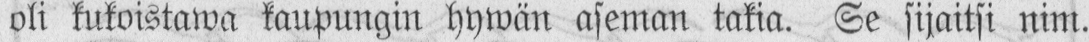oli kukoistawa kaupungin hywän aseman takia. Se sijaitsi nim.
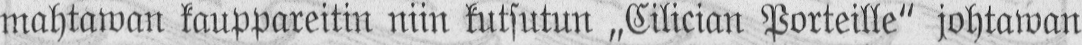mahtawan kauppareitin niin kutsutun „Cilician Porteille" johtawan
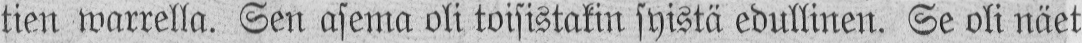tien warrella. Sen asema oli toisistakin syistä edullinen. Se oli näet
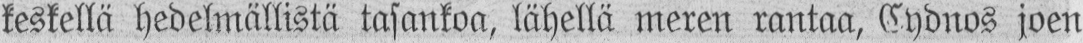keskellä hedelmällistä tasankoa, lähellä meren rantaa, Cydnos joen
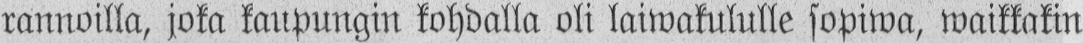rannoilla, joka kaupungin kohdalla oli laiwakululle sopiwa, waikkakin
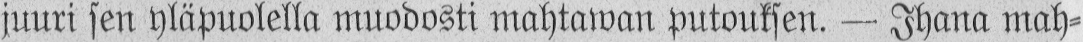juuri sen yläpuolella muodosti mahtawan putouksen. — Ihana mah-
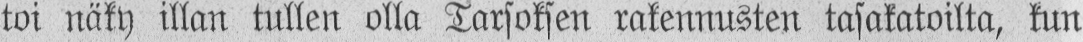toi näky illan tullen olla Tarsoksen rakennusten tasakatoilta, kun
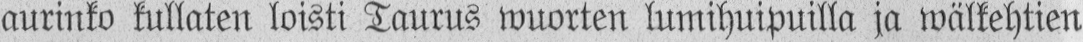aurinko kullaten loisti Taurus wuorten lumihuipuilla ja wälkehtien
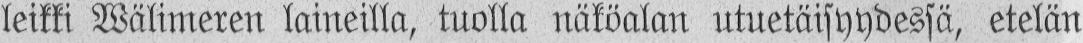leikki Wälimeren laineilla, tuolla näköalan utuetäisyydessä, etelän
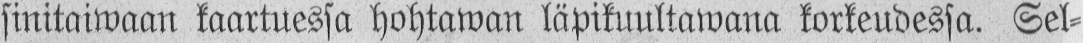sinitaiwaan kaartuessa hohtawan läpikuultawana korkeudessa. Sel-
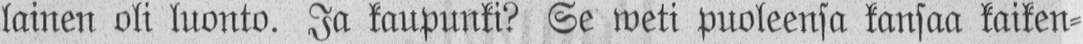lainen oli luonto. Ja kaupunki? Se weti puoleensa kansaa kaiken-
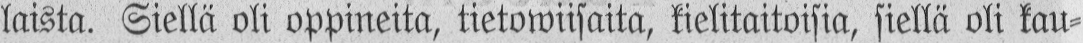laista. Siellä oli oppineita, tietowiisaita, kielitaitoisia, siellä oli kau-
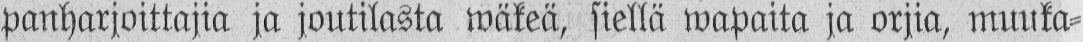panharjoittajia ja joutilasta wäkeä, siellä wapaita ja orjia, muuka-
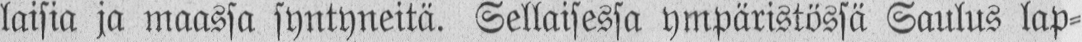laisia ja maassa syntyneitä. Sellaisessa ympäristössä Saulus lap-
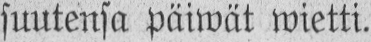suutensa päiwät wietti.
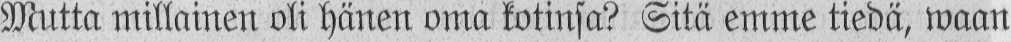Mutta millainen oli hänen oma kotinsa? Sitä emme tiedä, waan
